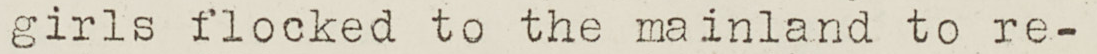girls flocked to the mainland to re-
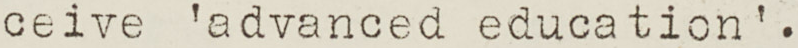ceive 'advanced education'.
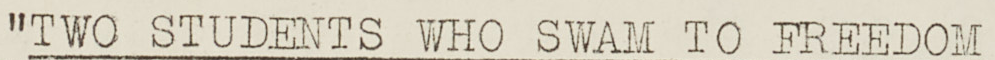"TWO STUDENTS WHO SWAM TO FREEDOM
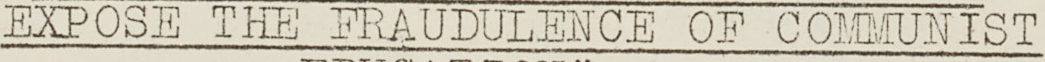EXPOSE THE FRAUDULENCE OF COMMUNIST
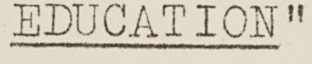EDUCATION"
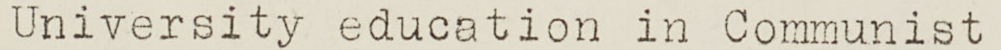University education in Communist
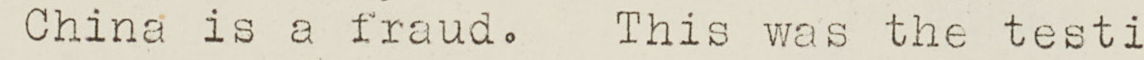China is a fraud. This was the testi
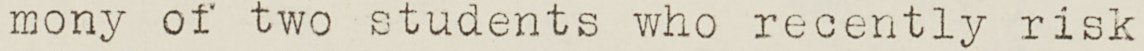mony of two students who recently risk
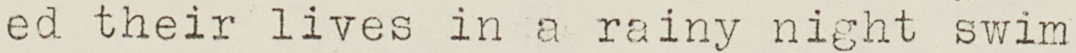ed their lives in a rainy night swim
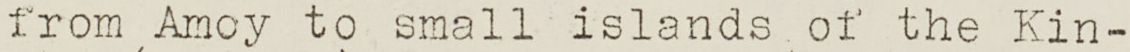from Amoy to small islands of the Kin-
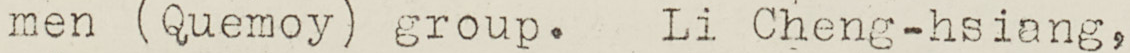men (Quemoy) group. Li Cheng-hsiang,
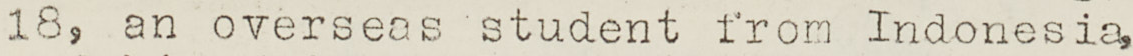18, an overseas student from Indonesia
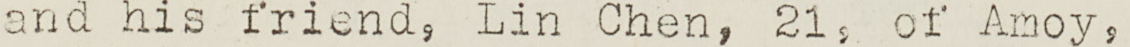and his friend, Lin Chen, 21, of Amoy,
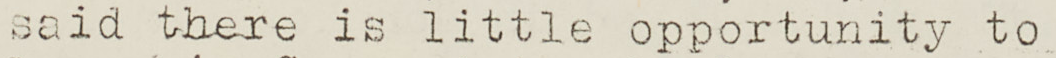said there is little opportunity to
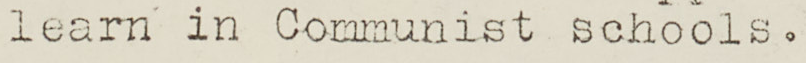learn in Communist schools.
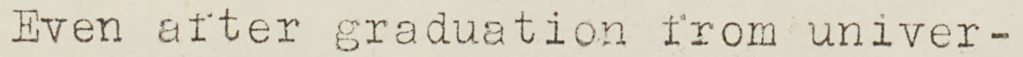Even after graduation from univer-
